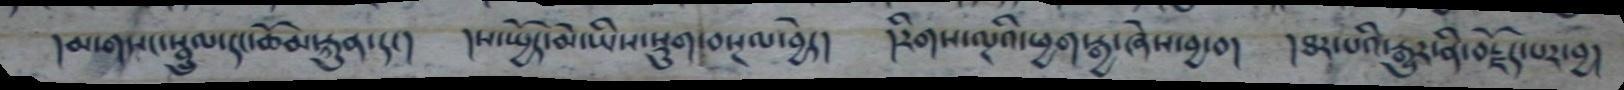།མ་གསང་སྦྲུལ་དང་ཆོམ་རྐུན་དང། །ས་སྤྱོད་མེ་ཡིས་སྡུག་བསྔལ་བྱེད། །རིགས་ལྔའི་ཕྱག་རྒྱ་ཞེས་བྱ་བ། །ཐར་པའི་རྒྱུར་ནི་བརྗོད་པར་བྱ།
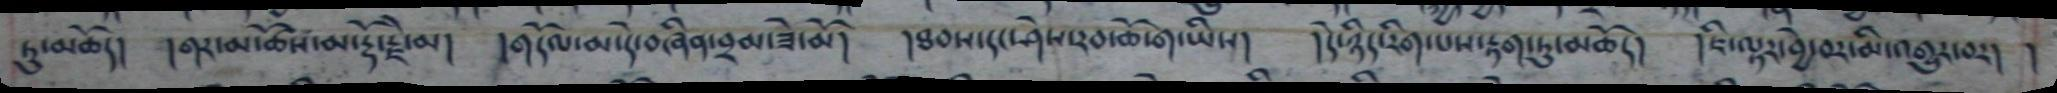ཏུ་མཆོད། །གར་མ་ཚོས་མ་རྡོ་རྗེ་མ། །གདོལ་མ་དེ་བཞིན་བྲམ་ཟེ་མོ། །ཐབས་དང་ཤེས་རབ་ཆོ་ག་ཡིས། །དེ་ཉིད་རིག་པས་རྟག་ཏུ་མཆོད། །ཇི་ལྟར་བྱེ་བར་མི་འགྱུར་བར། །
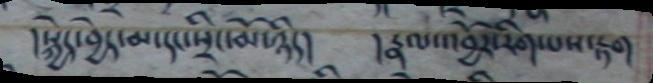།སྐྱེད་བྱེད་མ་དང་སྲིང་པོ་ཉིད། །རྣལ་འབྱོར་རིག་པས་རྟག
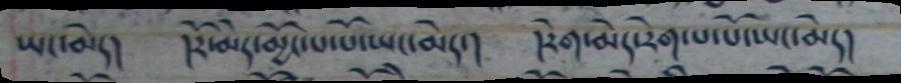ཡང་མེད། །རོ་མེད་མྱོང་པ་པོ་ཡང་མེད་། །རེག་མེད་རེག་པ་པོ་ཡང་མེད།
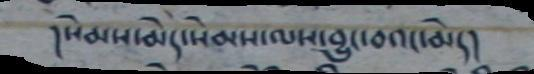།སེམས་མེད་སེམས་ལས་བྱུང་བའང་མེད།
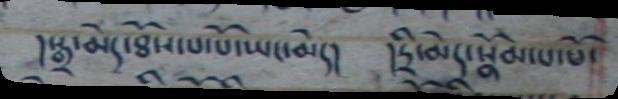།སྒྲ་མེད་ཐོས་པ་པོ་ཡང་མེད། །དྲི་མེད་སྣོམ་པ་པོ་
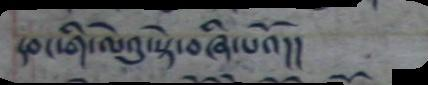དབང་གི་ལེའུ་སྟེ་བཞི་པའོ།།
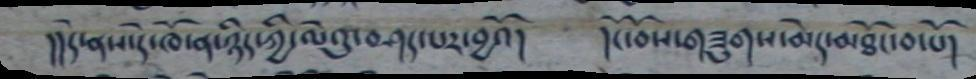།།དེ་ནས་དེ་ཁོ་ན་ཉིད་ཀྱི་ལེའུ་བཤད་པར་བྱའོ། །ངོ་བོས་གཟུགས་མེད་མཐོང་བ་པོ།
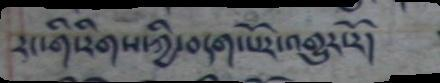རང་གི་རིགས་ཀྱི་བདག་པོར་འགྱུར་རོ།
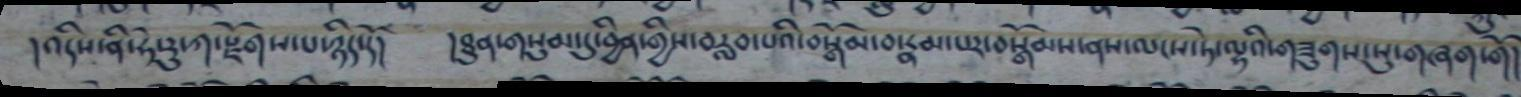།འདིས་ནི་ཧེ་རུ་ཀ་སྫོགས་པ་ཉིད་དོ། །ཐུན་གསུམ་དུ་བྱིན་གྱིས་བརླབ་པའི་བསྒོམ་བ་རྣམ་པར་བསྒོམས་ནས་ལངས་ཏེ་ལྷའི་གཟུགས་སུ་གཞག་གོ།
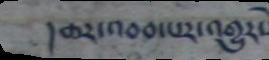།ཆར་འབབ་པར་འགྱུར་
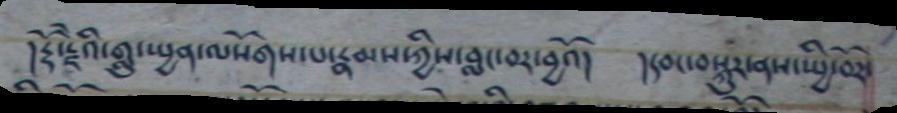།རྡོ་རྗེའི་གླུ་སྤྱན་ལསོགས་པ་རྣམས་ཀྱིས་བླ་མར་བྱའོ། །དབང་བསྐུར་ནས་སྤྱི་བོར་
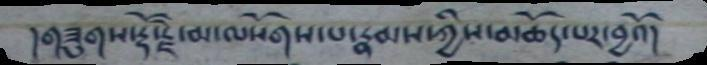།གཟུགས་རྡོ་རྗེ་མ་ལསོགས་པ་རྣམས་ཀྱིས་མཆོད་པར་བྱའོ།
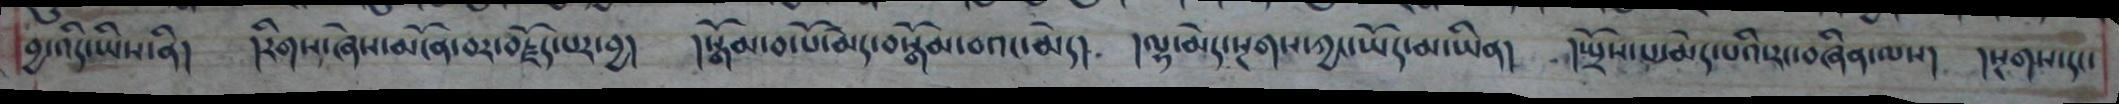བྱ་འདི་ཡིས་ནི། །རིགས་ཞེས་མངོན་བར་བརྗོད་པར་བྱ། །སྒོམ་བ་པོ་མེད་བསྒོམ་བའང་མེད། །ལྷ་མེད་སྔགས་ཀྱང་ཡོད་མ་ཡིན། །སྤྲོས་པ་མེད་པའི་རང་བཞིན་ལས། །སྔགས་དང་
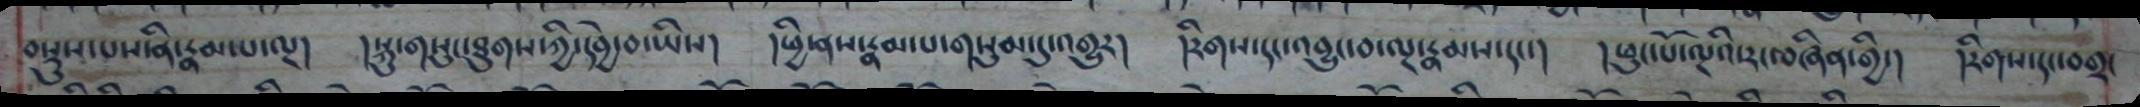བསྡུས་པས་ནི་རྣམ་པ་ལྔ། །སྐུ་གསུང་ཐུགས་ཀྱི་དབྱེ་བ་ཡིས། །ཕྱི་ནས་རྣམ་པ་གསུམ་དུ་འགྱུར། །རིགས་དང་འབྱུང་བ་ལྔ་རྣམས་དང་། །ཕུང་པོ་ལྔའི་རང་བཞིན་གྱི་། །རིགས་དང་བགྲང
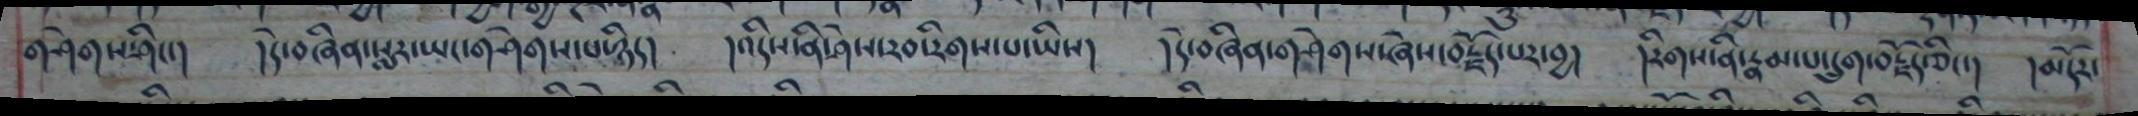གཤེགས་ཤིང་། །དེ་བཞིན་སླར་ཡང་གཤེགས་པ་ཉིད། །འདིས་ནི་ཤེས་རབ་རིགས་པ་ཡིས། །དེ་བཞིན་གཤེགས་ཞེས་བརྗོད་པར་བྱ། །རིགས་ནི་རྣམ་པ་དྲུག་བརྗོད་ཅིང་། །མདོར་
